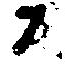7
